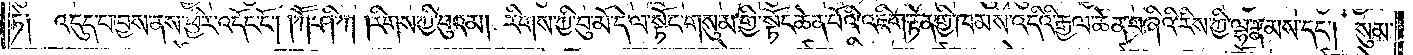ཏེ། འདུད་པ་བྱས་ནས་ཕྱིར་འདོང་ངོ༌། །ཀཽ་ཤི་ཀ །རིགས་ཀྱི་བུའམ། རིགས་ཀྱི་བུ་མོ་དེ་ལ་སྟོང་གསུམ་གྱི་སྟོང་ཆེན་པོའི་འཇིག་རྟེན་གྱི་ཁམས་འདིའི་རྒྱལ་ཆེན་བཞིའི་རིས་ཀྱི་ལྷ་རྣམས་དང༌། སུམ་
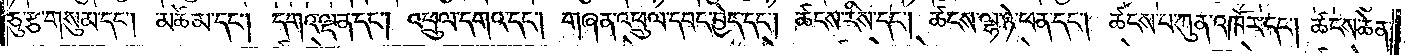ཅུ་རྩ་གསུམ་དང༌། མཚེ་མ་དང༌། དགའ་ལྡན་དང༌། འཕྲུལ་དགའ་དང༌། གཞན་འཕྲུལ་དབང་བྱེད་དང༌། ཚངས་རིས་དང༌། ཚངས་ལྷ་ཉེ་ཕན་དང༌། ཚངས་པ་ཀུན་འཁོར་དང༌། ཚངས་ཆེན་
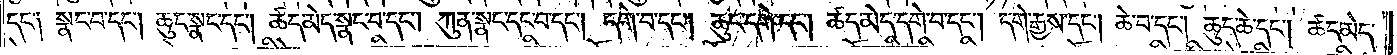དང༌། སྣང་བ་དང༌། ཆུང་སྣང་དང༌། ཚད་མེད་སྣང་བ་དང༌། ཀུན་སྣང་དང་བ་དང༌། དགེ་བ་དང༌། ཆུང་དགེ་དང༌། ཚད་མེད་དགེ་བ་དང༌། དགེ་རྒྱས་དང༌། ཆེ་བ་དང༌། ཆུང་ཆེ་དང༌། ཚད་མེད་
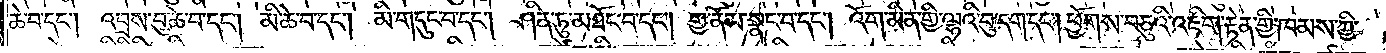ཆེ་བ་དང༌། འབྲས་བུ་ཆེ་བ་དང༌། མི་ཆེ་བ་དང༌། མི་གདུང་བ་དང༌། ཤིན་ཏུ་མཐོང་བ་དང༌། གྱ་ནོམ་སྣང་བ་དང༌། འོག་མིན་གྱི་ལྷའི་བུ་དག་དང༌། ཕྱོགས་བཅུའི་འཇིག་རྟེན་གྱི་ཁམས་ཀྱི་
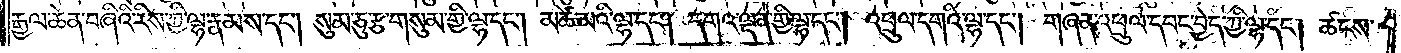རྒྱལ་ཆེན་བཞིའི་རིས་ཀྱི་ལྷ་རྣམས་དང༌། སུམ་ཅུ་རྩ་གསུམ་གྱི་ལྷ་དང༌། མཚེ་མའི་ལྷ་དང༌། དགའ་ལྡན་གྱི་ལྷ་དང༌། འཕྲུལ་དགའི་ལྷ་དང༌། གཞན་འཕྲུལ་དབང་བྱེད་ཀྱི་ལྷ་དང༌། ཚངས་
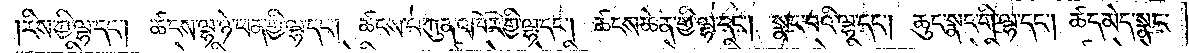རིས་ཀྱི་ལྷ་དང༌། ཚངས་ལྷ་ཉེ་ཕན་གྱི་ལྷ་དང༌། ཚངས་པ་ཀུན་འཁོར་གྱི་ལྷ་དང༌། ཚངས་ཆེན་གྱི་ལྷ་དང༌། སྣང་བའི་ལྷ་དང༌། ཆུང་སྣང་གི་ལྷ་དང༌། ཚད་མེད་སྣང་
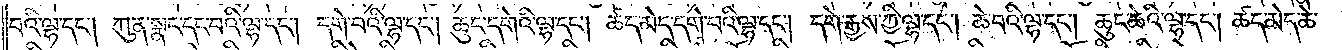བའི་ལྷ་དང༌། ཀུན་སྣང་དང་བའི་ལྷ་དང༌། དགེ་བའི་ལྷ་དང༌། ཆུང་དགེའི་ལྷ་དང༌། ཚད་མེད་དགེ་བའི་ལྷ་དང༌། དགེ་རྒྱས་ཀྱི་ལྷ་དང༌། ཆེ་བའི་ལྷ་དང༌། ཆུང་ཆེའི་ལྷ་དང༌། ཚད་མེད་ཆེ་
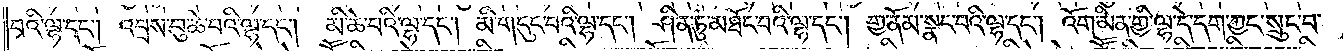བའི་ལྷ་དང༌། འབྲས་བུ་ཆེ་བའི་ལྷ་དང༌། མི་ཆེ་བའི་ལྷ་དང༌། མི་གདུང་བའི་ལྷ་དང༌། ཤིན་ཏུ་མཐོང་བའི་ལྷ་དང༌། གྱ་ནོམ་སྣང་བའི་ལྷ་དང༌། འོག་མིན་གྱི་ལྷ་དེ་དག་ཀྱང་སྲུང་བ་
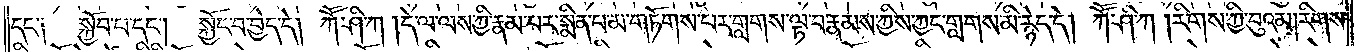དང༌། སྐྱོབ་པ་དང༌། སྐྱོང་བ་བྱེད་དེ། ཀཽ་ཤི་ཀ །དེ་ལ་ལས་ཀྱི་རྣམ་པར་སྨིན་པ་མ་གཏོགས་པར་གླགས་ལྟ་བ་རྣམས་ཀྱིས་ཀྱང་གླགས་མི་རྙེད་དེ། ཀཽ་ཤི་ཀ །རིགས་ཀྱི་བུའམ། རིགས་
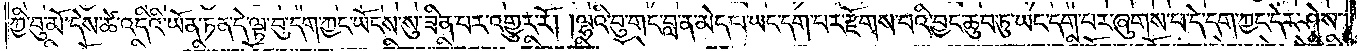ཀྱི་བུ་མོ་དེས་ཚེ་འདིའི་ཡོན་ཏན་དེ་ལྟ་བུ་དག་ཀྱང་ཡོངས་སུ་ཟིན་པར་འགྱུར་རོ། །ལྷའི་བུ་གང་བླ་ན་མེད་པ་ཡང་དག་པར་རྫོགས་པའི་བྱང་ཆུབ་ཏུ་ཡང་དག་པར་ཞུགས་པ་དེ་དག་ཀྱང་དེར་ཤེས་
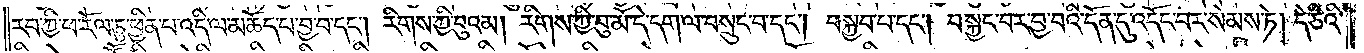རབ་ཀྱི་ཕ་རོལ་ཏུ་ཕྱིན་པ་འདི་ལ་མཆོད་པ་བྱ་བ་དང༌། རིགས་ཀྱི་བུའམ། རིགས་ཀྱི་བུ་མོ་དེ་དག་ལ་བསྲུང་བ་དང༌། བསྐྱབ་པ་དང༌། བསྐྱང་བར་བྱ་བའི་དོན་དུ་འདོང་བར་སེམས་ཏེ། དེ་ཅིའི་
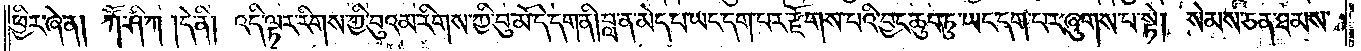ཕྱིར་ཞེ་ན། ཀཽ་ཤི་ཀ །དེ་ནི། འདི་ལྟར་རིགས་ཀྱི་བུའམ་རིགས་ཀྱི་བུ་མོ་དེ་དག་ནི། བླ་ན་མེད་པ་ཡང་དག་པར་རྫོགས་པའི་བྱང་ཆུབ་ཏུ་ཡང་དག་པར་ཞུགས་པ་སྟེ། སེམས་ཅན་ཐམས་
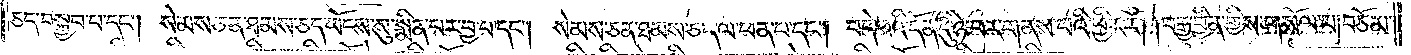ཅད་བསྐྱབ་པ་དང༌། སེམས་ཅན་ཐམས་ཅད་ཡོངས་སུ་སྨིན་པར་བྱ་བ་དང༌། སེམས་ཅན་ཐམས་ཅད་ལ་ཕན་པ་དང༌། བདེ་བའི་དོན་དུ་ཉེ་བར་གནས་པའི་ཕྱིར་རོ། །བརྒྱ་བྱིན་གྱིས་གསོལ་པ། བཅོམ་
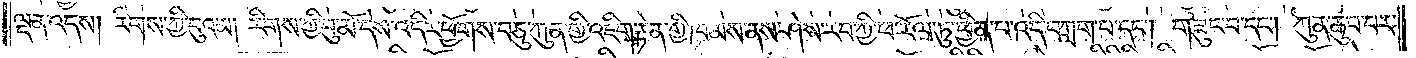ལྡན་འདས། རིགས་ཀྱི་བུའམ། རིགས་ཀྱི་བུ་མོ་དེས་འདིར་ཕྱོགས་བཅུ་ཀུན་གྱི་འཇིག་རྟེན་གྱི་ཁམས་ནས་ཤེས་རབ་ཀྱི་ཕ་རོལ་ཏུ་ཕྱིན་པ་འདི་བཀླག་པ་དང༌། གཟུང་བ་དང༌། ཀུན་ཆུབ་བར་
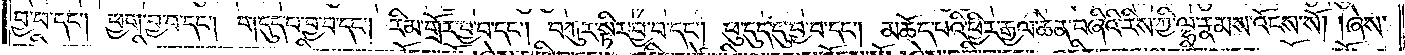བྱ་བ་དང༌། ཕྱག་བྱ་བ་དང༌། གདུད་པ་བྱ་བ་དང༌། རིམ་གྲོར་བྱ་བ་དང༌། བཀུར་སྟིར་བྱ་བ་དང༌། ཕུ་དུད་དུ་བྱ་བ་དང༌། མཆོད་པའི་ཕྱིར་རྒྱལ་ཆེན་བཞིའི་རིས་ཀྱི་ལྷ་རྣམས་འོངས་སོ། །ཞེས་
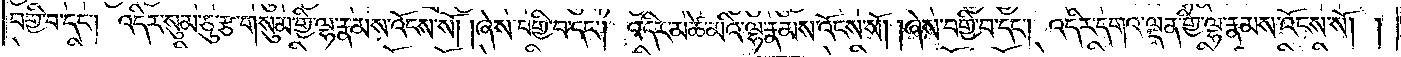བགྱི་བ་དང༌། འདིར་སུམ་ཅུ་རྩ་གསུམ་གྱི་ལྷ་རྣམས་འོངས་སོ། །ཞེས་བགྱི་བ་དང༌། འདིར་མཚེ་མའི་ལྷ་རྣམས་འོངས་སོ། །ཞེས་བགྱི་བ་དང༌། འདིར་དགའ་ལྡན་གྱི་ལྷ་རྣམས་འོངས་སོ། །
